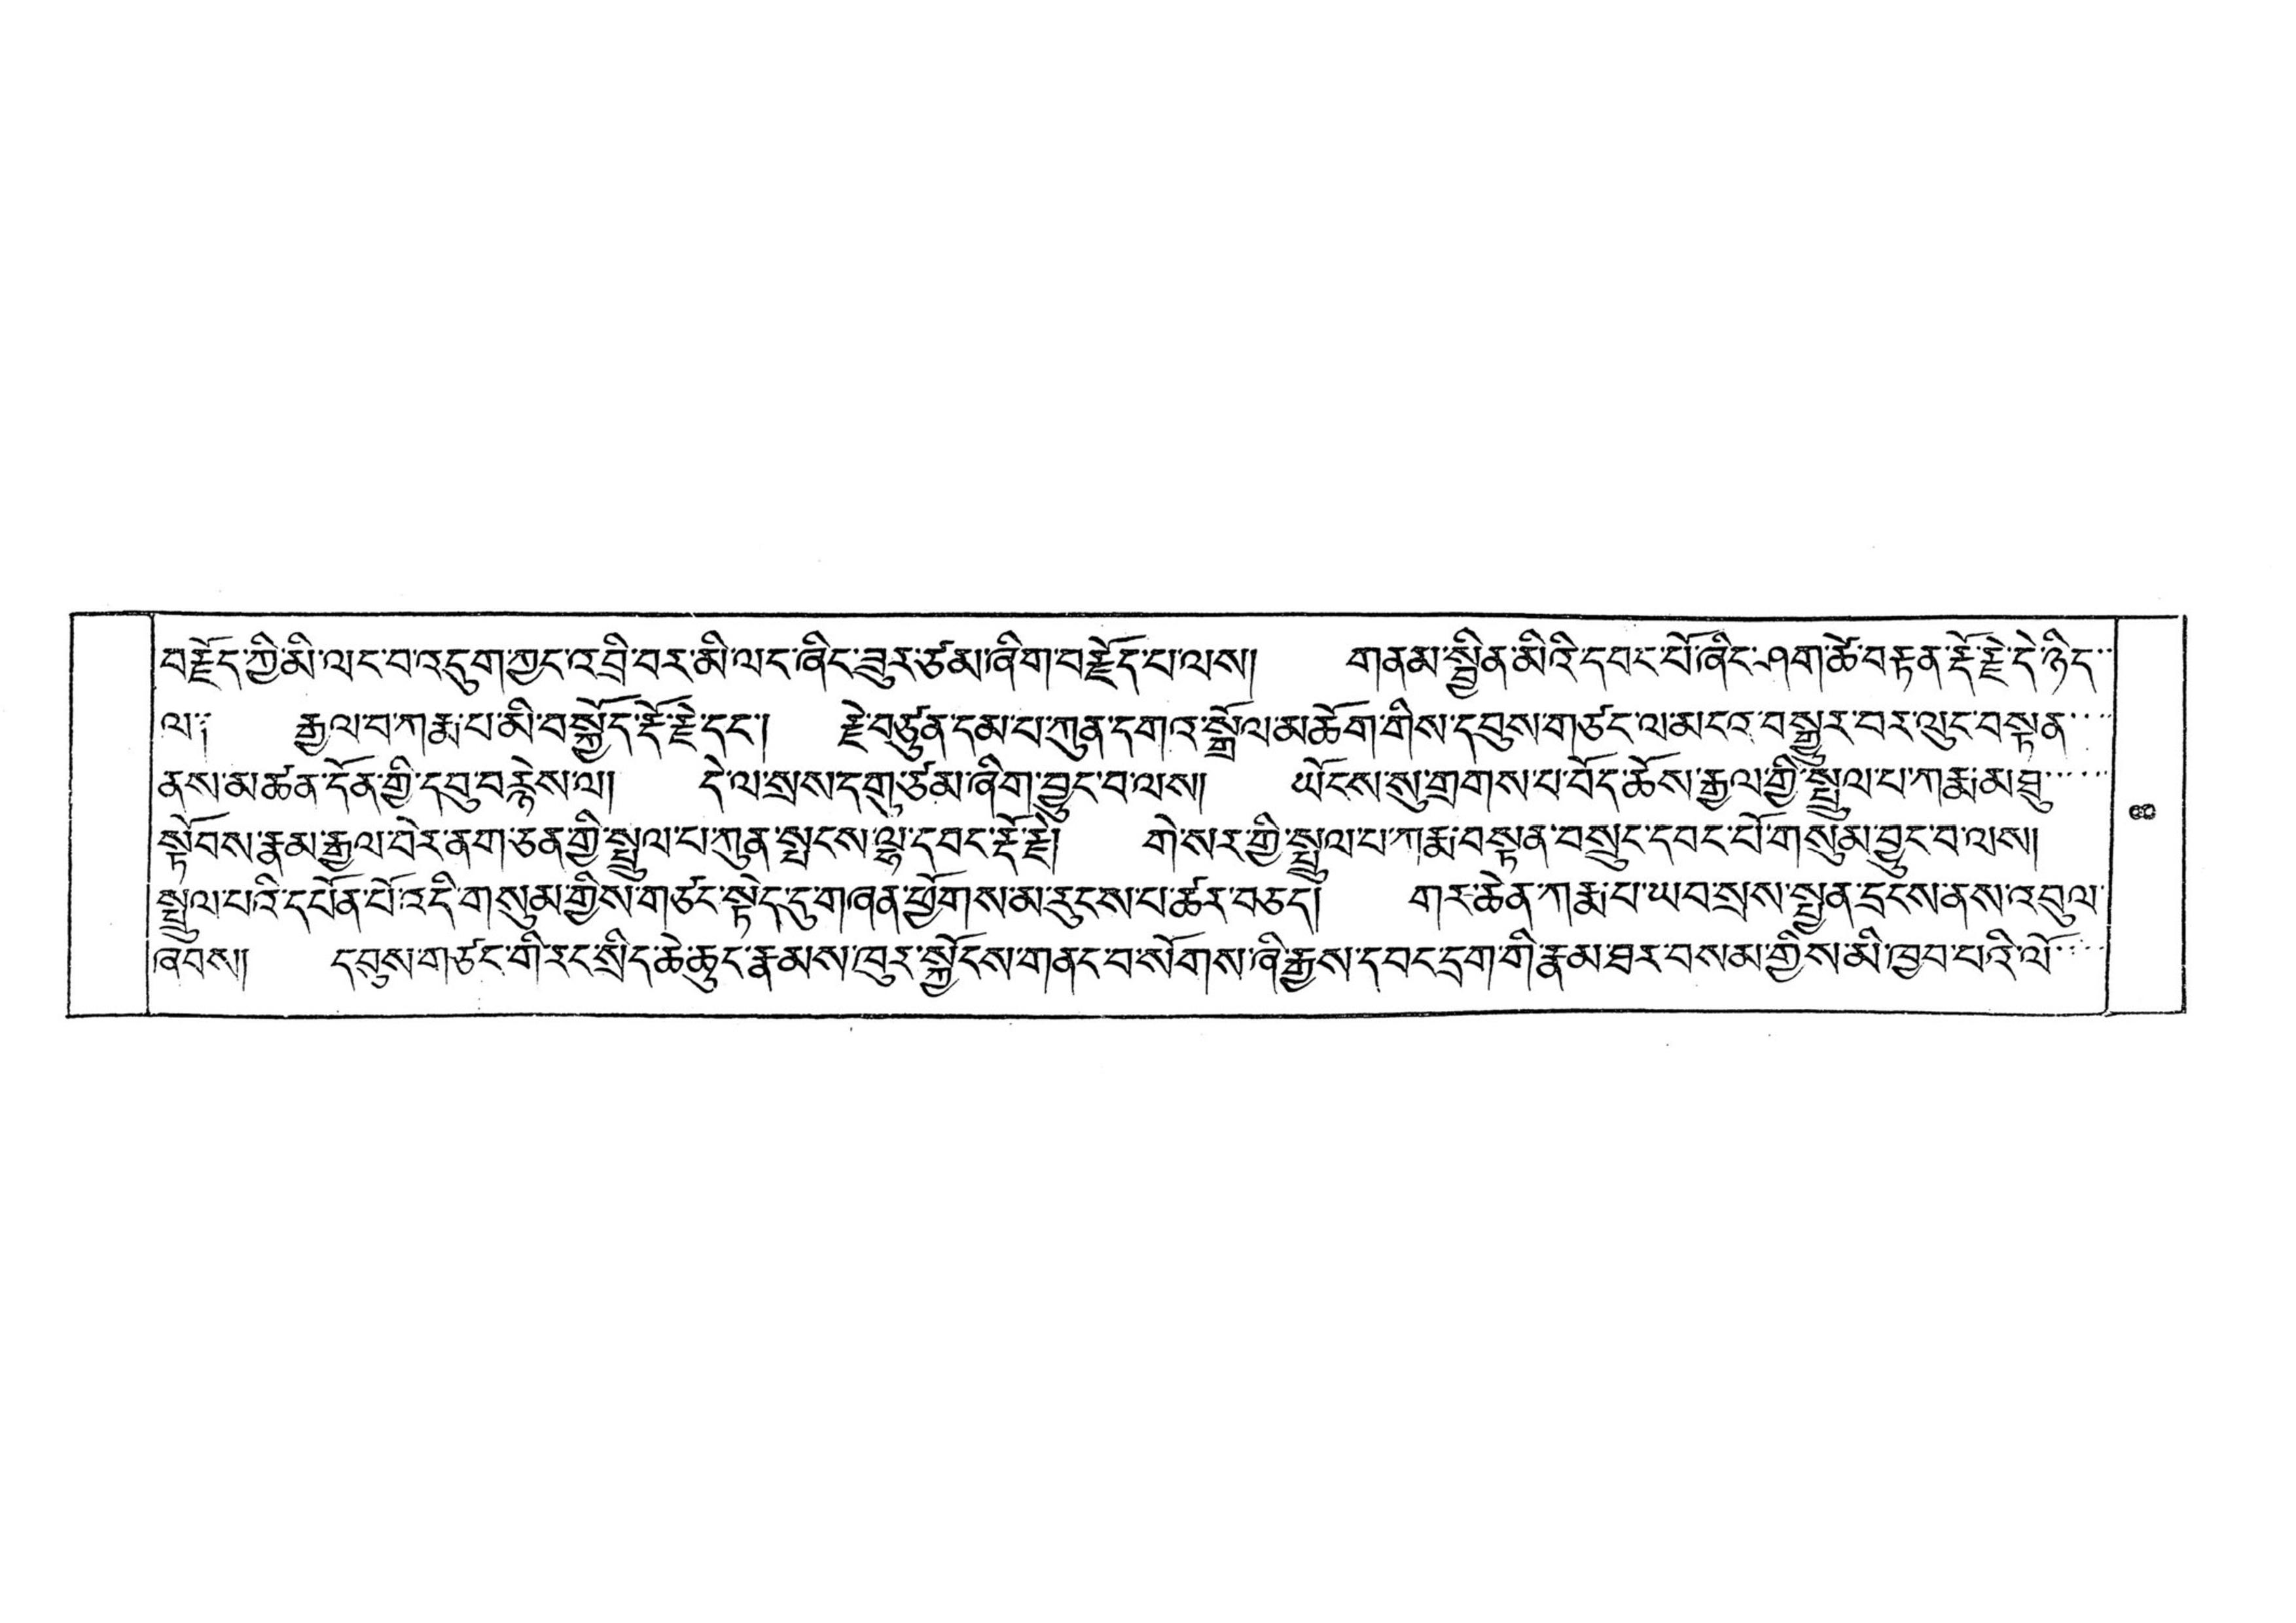བརྗོད་ཀྱི་མི་ལང་བ་འདུག་ཀྱང་འབྲི་བར་མི་ལངཞིང་ཟུར་ཙམ་ཞིག་བརྗོད་པ་ལས། གནམ་སྦྱིན་མིའི་དབང་པོ་ཞིང་ཤག་ཚེ་བརྟན་རྡོ་རྗེ་དེ་ཉིད་་
ལ༑ རྒྱལ་བ་ཀརྨ་པ་མི་བསྐྱོད་རྡོ་རྗེ་དང་། རྗེ་བཙུན་དམ་པ་ཀུན་དགའ་སྒྲོལ་མཆོག་གིས་དབུས་གཙང་ལ་མངའ་བསྒྱུར་བར་ལུང་བསྟན་་་
ནས་མཚན་དོན་གྱི་དབུ་བརྙེས་ལ། དེ་ལ་སྲས་དགུ་ཙམ་ཞིག་བྱུང་བ་ལས། ཡོངས་སུ་གྲགས་པ་བོད་ཆོས་རྒྱལ་གྱི་སྤྲུལ་པ་ཀརྨ་མཐུ་་་་་་
སྟོབས་རྣམ་རྒྱལ་བེར་ནག་ཅན་གྱི་སྤྲུལ་པ་ཀུན་སྤངས་ལྷ་དབང་རྡོ་རྗེ། གེ་སར་གྱི་སྤྲལ་པ་ཀརྨ་བསྟན་བསྲུང་དབང་པོ་གསུམ་བྱུང་བ་ལས།
སྤྲུལ་པའི་དཔོན་པོ་འདི་གསུམ་གྱིས་གཙང་སྟེད་དུ་གཞན་ཕྱོགས་མ་རུངས་པ་ཚར་བཅད། གར་ཆེན་ཀརྨ་པ་ཡབ་སྲས་སྤྱན་དྲངས་ནས་འབུལ་
ཞབས། དབུས་གཙང་གི་རང་སྲིད་ཆེ་ཆུང་རྣམས་ཁུར་སྐྱོངས་གནང་བ་སོགས་ཞི་རྒྱས་དབང་དྲག་གི་རྣམ་ཐར་བསམ་གྱིས་མི་ཁྱབ་པའི་ལོ་་་་
